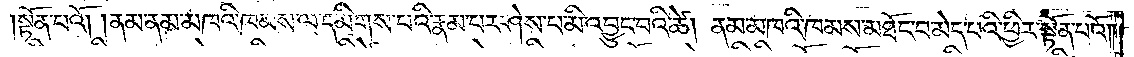སྟོན་པའོ། །ནམ་ནམ་མཁའི་ཁམས་ལ་དམིགས་པའི་རྣམ་པར་ཤེས་པ་མི་འབྱུང་བའི་ཚེ། ནམ་མཁའི་ཁམས་མཐོང་བ་མེད་པའི་ཕྱིར་སྟོན་པའོ། །
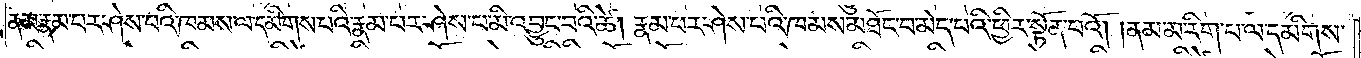ནམ་རྣམ་པར་ཤེས་པའི་ཁམས་ལ་དམིགས་པའི་རྣམ་པར་ཤེས་པ་མི་འབྱུང་བའི་ཚེ། རྣམ་པར་ཤེས་པའི་ཁམས་མཐོང་བ་མེད་པའི་ཕྱིར་སྟོན་པའོ། །ནམ་མ་རིག་པ་ལ་དམིགས་
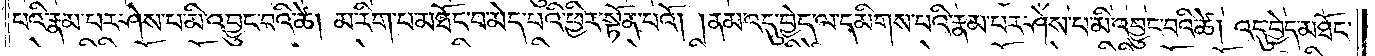པའི་རྣམ་པར་ཤེས་པ་མི་འབྱུང་བའི་ཚེ། མ་རིག་པ་མཐོང་བ་མེད་པའི་ཕྱིར་སྟོན་པའོ། །ནམ་འདུ་བྱེད་ལ་དམིགས་པའི་རྣམ་པར་ཤེས་པ་མི་འབྱུང་བའི་ཚེ། འདུ་བྱེད་མཐོང་
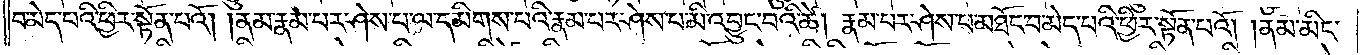བ་མེད་པའི་ཕྱིར་སྟོན་པའོ། །ནམ་རྣམ་པར་ཤེས་པ་ལ་དམིགས་པའི་རྣམ་པར་ཤེས་པ་མི་འབྱུང་བའི་ཚེ། རྣམ་པར་ཤེས་པ་མཐོང་བ་མེད་པའི་ཕྱིར་སྟོན་པའོ། །ནམ་མིང་
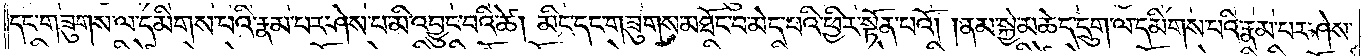དང་གཟུགས་ལ་དམིགས་པའི་རྣམ་པར་ཤེས་པ་མི་འབྱུང་བའི་ཚེ། མིང་དང་གཟུགས་མཐོང་བ་མེད་པའི་ཕྱིར་སྟོན་པའོ། །ནམ་སྐྱེ་མཆེད་དྲུག་ལ་དམིགས་པའི་རྣམ་པར་ཤེས་
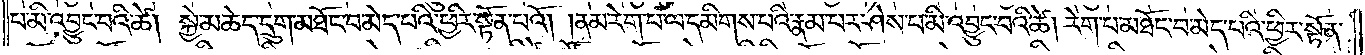པ་མི་འབྱུང་བའི་ཚེ། སྐྱེ་མཆེད་དྲུག་མཐོང་བ་མེད་པའི་ཕྱིར་སྟོན་པའོ། །ནམ་རེག་པ་ལ་དམིགས་པའི་རྣམ་པར་ཤེས་པ་མི་འབྱུང་བའི་ཚེ། རེག་པ་མཐོང་བ་མེད་པའི་ཕྱིར་སྟོན་
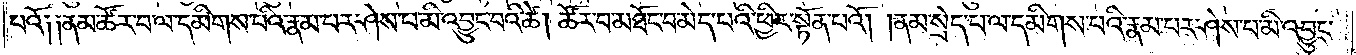པའོ༑ ༑ནམ་ཚོར་བ་ལ་དམིགས་པའི་རྣམ་པར་ཤེས་པ་མི་འབྱུང་བའི་ཚེ། ཚོར་བ་མཐོང་བ་མེད་པའི་ཕྱིར་སྟོན་པའོ། །ནམ་སྲེད་པ་ལ་དམིགས་པའི་རྣམ་པར་ཤེས་པ་མི་འབྱུང་
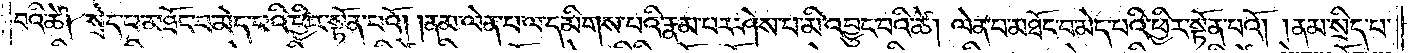བའི་ཚེ། སྲེད་པ་མཐོང་བ་མེད་པའི་ཕྱིར་སྟོན་པའོ། །ནམ་ལེན་པ་ལ་དམིགས་པའི་རྣམ་པར་ཤེས་པ་མི་འབྱུང་བའི་ཚེ། ལེན་པ་མཐོང་བ་མེད་པའི་ཕྱིར་སྟོན་པའོ། །ནམ་སྲིད་པ་
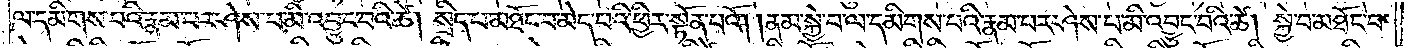ལ་དམིགས་པའི་རྣམ་པར་ཤེས་པ་མི་འབྱུང་བའི་ཚེ། སྲིད་པ་མཐོང་བ་མེད་པའི་ཕྱིར་སྟོན་པའོ། །ནམ་སྐྱེ་བ་ལ་དམིགས་པའི་རྣམ་པར་ཤེས་པ་མི་འབྱུང་བའི་ཚེ། སྐྱེ་བ་མཐོང་བ་
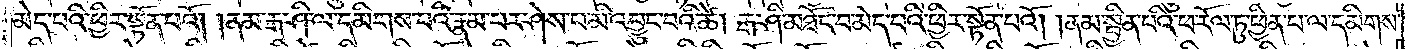མེད་པའི་ཕྱིར་སྟོན་པའོ། །ནམ་རྒ་ཤི་ལ་དམིགས་པའི་རྣམ་པར་ཤེས་པ་མི་འབྱུང་བའི་ཚེ། རྒ་ཤི་མཐོང་བ་མེད་པའི་ཕྱིར་སྟོན་པའོ། །ནམ་སྦྱིན་པའི་ཕ་རོལ་ཏུ་ཕྱིན་པ་ལ་དམིགས་
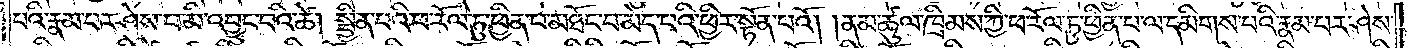པའི་རྣམ་པར་ཤེས་པ་མི་འབྱུང་བའི་ཚེ། སྦྱིན་པའི་ཕ་རོལ་ཏུ་ཕྱིན་པ་མཐོང་བ་མེད་པའི་ཕྱིར་སྟོན་པའོ། །ནམ་ཚུལ་ཁྲིམས་ཀྱི་ཕ་རོལ་ཏུ་ཕྱིན་པ་ལ་དམིགས་པའི་རྣམ་པར་ཤེས་
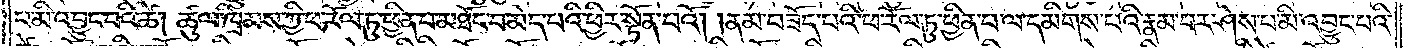པ་མི་འབྱུང་བའི་ཚེ། ཚུལ་ཁྲིམས་ཀྱི་ཕ་རོལ་ཏུ་ཕྱིན་པ་མཐོང་བ་མེད་པའི་ཕྱིར་སྟོན་པའོ། །ནམ་བཟོད་པའི་ཕ་རོལ་ཏུ་ཕྱིན་པ་ལ་དམིགས་པའི་རྣམ་པར་ཤེས་པ་མི་འབྱུང་བའི་
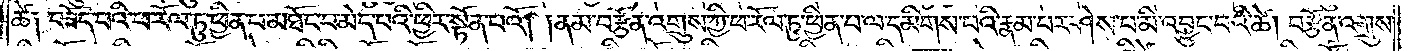ཚེ༑ བཟོད་པའི་ཕ་རོལ་ཏུ་ཕྱིན་པ་མཐོང་པ་མེད་པའི་ཕྱིར་སྟོན་པའོ། །ནམ་བརྩོན་འགྲུས་ཀྱི་ཕ་རོལ་ཏུ་ཕྱིན་པ་ལ་དམིགས་པའི་རྣམ་པར་ཤེས་པ་མི་འབྱུང་བའི་ཚེ། བརྩོན་འགྲུས་
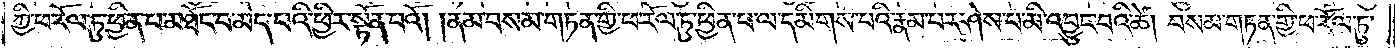ཀྱི་ཕ་རོལ་ཏུ་ཕྱིན་པ་མཐོང་བ་མེད་པའི་ཕྱིར་སྟོན་པའོ། །ནམ་བསམ་གཏན་གྱི་ཕ་རོལ་ཏུ་ཕྱིན་པ་ལ་དམིགས་པའི་རྣམ་པར་ཤེས་པ་མི་འབྱུང་བའི་ཚེ། བསམ་གཏན་གྱི་ཕ་རོལ་ཏུ་
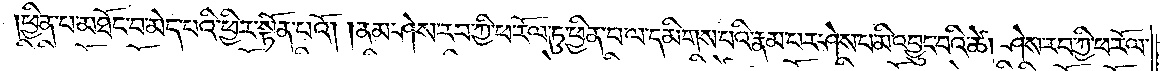ཕྱིན་པ་མཐོང་བ་མེད་པའི་ཕྱིར་སྟོན་པའོ། །ནམ་ཤེས་རབ་ཀྱི་ཕ་རོལ་ཏུ་ཕྱིན་པ་ལ་དམིགས་པའི་རྣམ་པར་ཤེས་པ་མི་འབྱུང་བའི་ཚེ། ཤེས་རབ་ཀྱི་ཕ་རོལ་
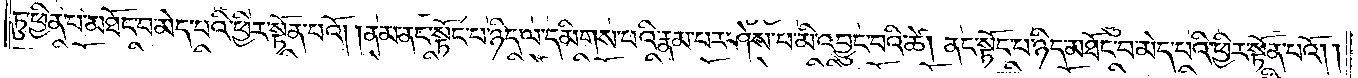ཏུ་ཕྱིན་པ་མཐོང་བ་མེད་པའི་ཕྱིར་སྟོན་པའོ། །ནམ་ནང་སྟོང་པ་ཉིད་ལ་དམིགས་པའི་རྣམ་པར་ཤེས་པ་མི་འབྱུང་བའི་ཚེ། ནང་སྟོང་པ་ཉིད་མཐོང་བ་མེད་པའི་ཕྱིར་སྟོན་པའོ༎
